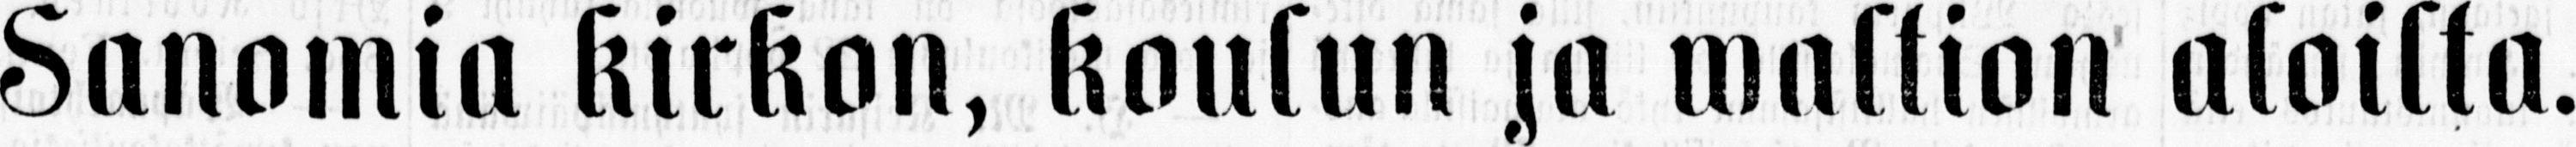Sanomia kirkon, koulun ja waltion aloilta.
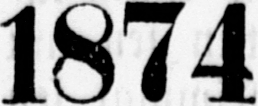1874
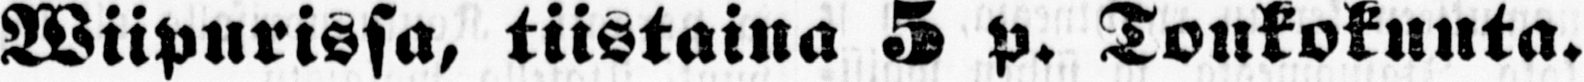Wiipurissa, tiistaina 5 p. Toukokuuta.
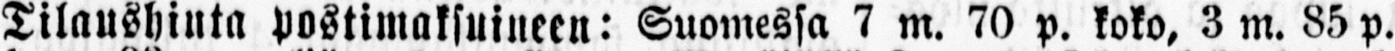Tilaushinta postimaksuineen: Suomessa 7 m. 70 p. koko, 3 m. 85 p.
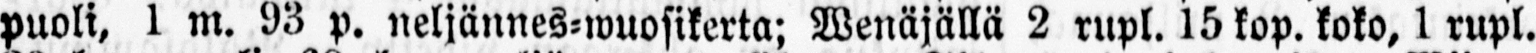puoli, l m. 93 p. neljännes-wuosikerta; Wenäjällä 2 rupl. 15 kop. koko, 1 rupl.
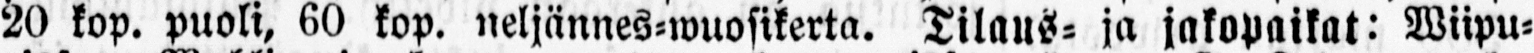20 kop. puoli, 60 kop. neljännes-wuosikerta. Tilaus- ja jakopaikat: Wiipu-
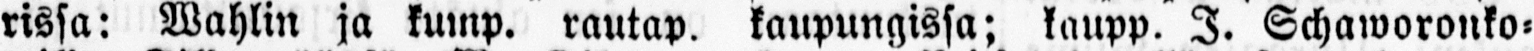rissa: Wahlin ja kump. rautap. kaupungissa; kaupp. I. Schaworonko-
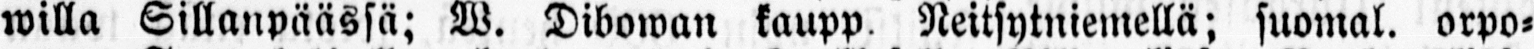willa Sillanpäässä; W. Dibowan kaupp Neitsytniemellä; suomal. orpo-
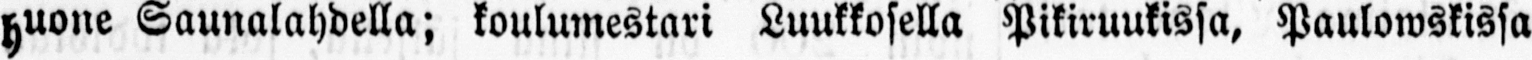huone Saunalahdella; koulumestari Luukkosella Pikiruukissa, Paulowskissa
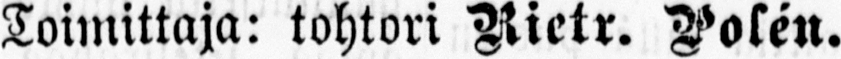Toimittaja: tohtori Rietr. Polén.
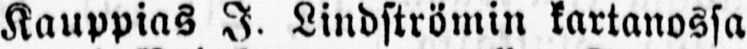Kauppias I. Lindströmin kartanossa
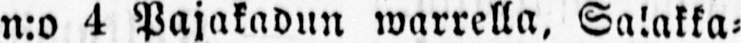n:o 4 Pajakadun warrella, Salakka-
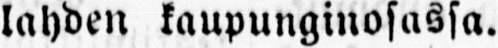lahden kaupunginosassa.
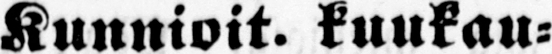Kunnioit. kuukau-
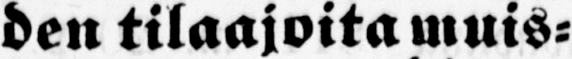den tilaajoitamuis-
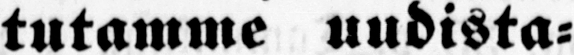tutamme uudista-
